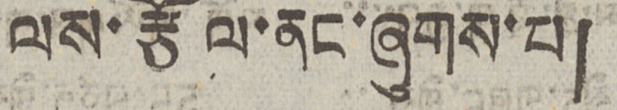ལས་རྩོལ་ནང་ཞུགས་པ།
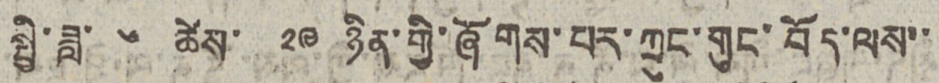སྤྱི་ཟླ་ ༦ ཚེས་ ༢༩ ཉིན་གྱི་ཞོགས་པར་ཀྲུང་གུང་བོད་ལས་་
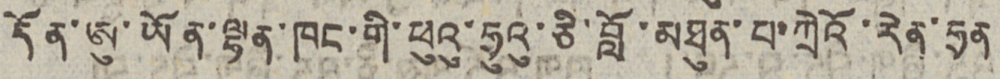དོན་ཨུ་ཡོན་ལྷན་ཁང་གི་ཕུའུ་ཧྲུའུ་ཅི་བློ་མཐུན་པ་ཀྲེའོ་རེན་ཧྲན
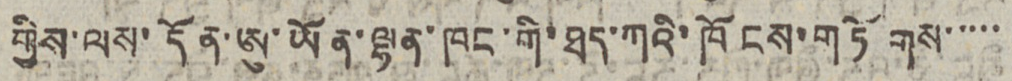གྱིས་ལས་དོན་ཨུ་ཡོན་ལྷན་ཁང་གི་ཐད་ཀའི་ཁོངས་གཏོགས་་་་་
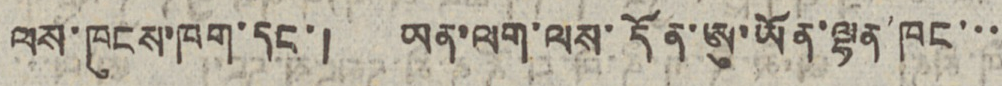ལས་ཁུངས་ཁག་དང་། ཡན་ལག་ལས་དོན་ཨུ་ཡོན་ལྷན་ཁང་་་
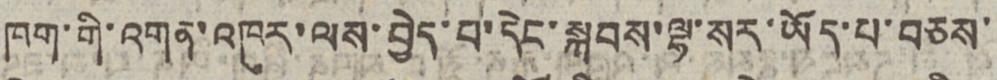ཁག་གི་འགན་འཁུར་ལས་བྱེད་པ་དེང་སྐབས་ལྷ་སར་ཡོད་པ་བཅས་
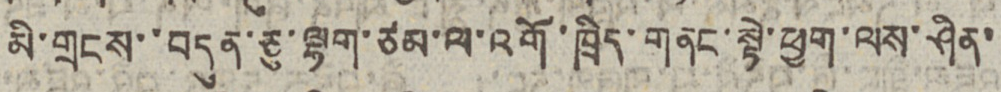མི་གྲངས་་བདུན་ཅུ་ལྷག་ཙམ་ལ་འགོ་ཁྲིད་གནང་སྟེ་ཕྱག་ལས་ཤིན་
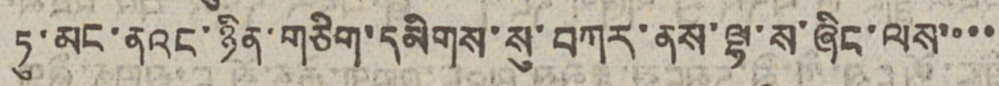ཏུ་མང་ནའང་ཉིན་གཅིག་དམིགས་སུ་བཀར་ནས་ལྷ་ས་ཞིང་ལས་་་་
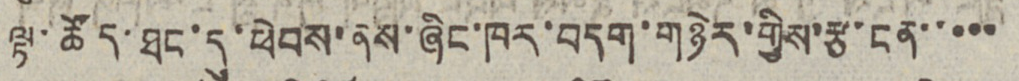ལྟ་ཚོད་ཐང་དུ་ཕེབས་ནས་ཞིང་ཁར་བདག་གཉེར་གྱིས་རྩ་ངན་་་་་
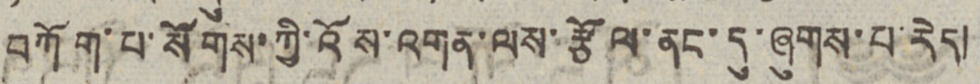བཀོག་པ་སོགས་ཀྱི་འོས་འགན་ལས་རྩོལ་ནང་དུ་ཞུགས་པ་རེད།
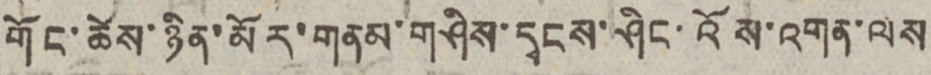གོང་ཚེས་ཉིན་མོར་གནམ་གཤིས་དྭངས་ཤིང་འོས་འགན་ལས
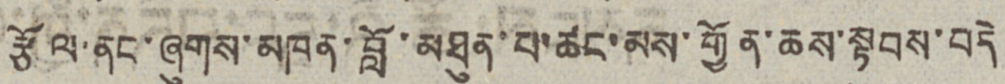རྩོལ་ནང་ཞུགས་མཁན་བློ་མཐུན་པ་ཚང་མས་གྱོན་ཆོས་སྟབས་བདེ
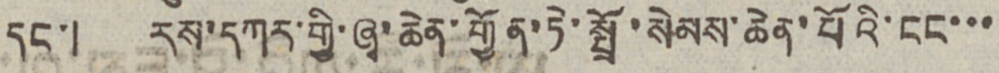དང་། རས་དཀར་གྱི་ཞྭ་ཆེན་གྱོན་ཏེ་སྤྲོ་སེམས་ཆེན་པོའི་ངང་་་
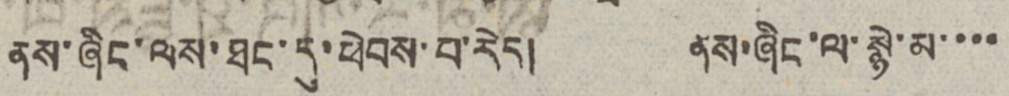ནས་ཞིང་ལས་ཐང་དུ་ཕེབས་པ་རེད། ནས་ཞིང་ལ་སྙེ་མ་་་་
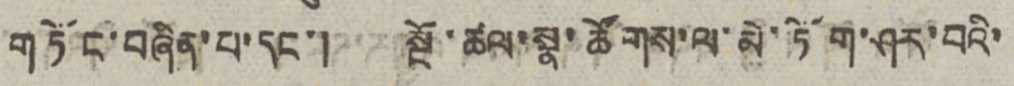གཏོང་བཞིན་པ་དང་། སྔོ་ཚལ་སྣ་ཚོགས་ལ་མེ་ཏོག་ཤར་བའི་
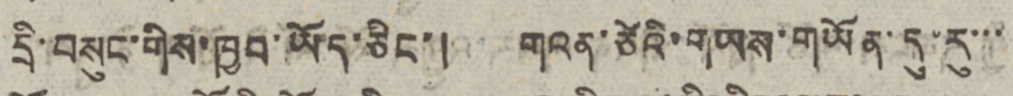དྲི་བསུང་གིས་ཁྱབ་ཡོད་ཅིང་། གའན་ཙེའི་གཡས་གཡོན་དུ་རུ་་་
